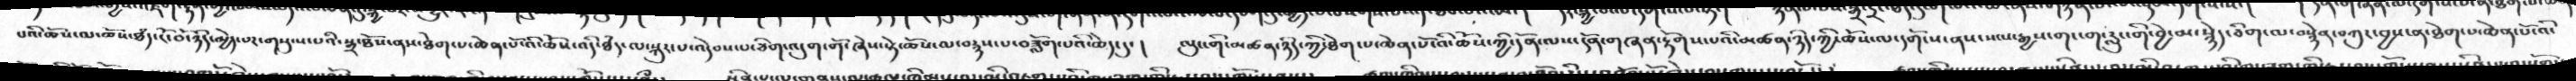པའི་ཆོས་ལ་ཆོས་ཐཾད་ངོ་བོ་ཉིད་མྱེད་པར་གསུངས་པའི་སྒྲ་ཐོས་ནས་ཐེག་པ་ཆེན་པོ་འི་ཆོས་འདི་ཐཾད་ལ་སྐུར་པ་འདེབས་པ་ཅིག་འདུག་གོ་ཞེས་སྟེ་ཆོས་མ་བརྙས་པ་བཟློག་པའི་ཆེད་དུ་།   ལུང་གི་མཚན་ཉིད་ཀྱི་ཐེག་པ་ཆེན་པོ་འི་ཆོས་ཀྱི་དོན་ལས་དོན་གཞན་རྟོགས་པའི་མཚན་ཉིད་ཀྱི་ཆོས་ལ་དགོངས་ནས་སངས་རྒྱས་གང་ག་རླུང་གི་བྱེ་མ་སྙེད་ཅིག་ལ་བསྙེན་བཀུར་བྱས་ན་ཐེག་པ་ཆེན་པོ་འི་
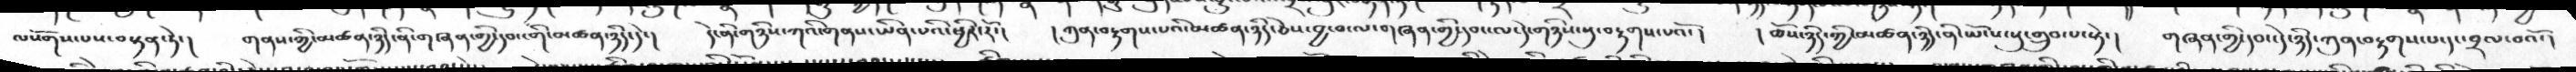ལསོགས་པས་བསྟན་ཏེ་།  གནས་ཀྱི་མཚན་ཉིད་ནི་གཞན་གྱི་དབང་གི་མཚན་ཉིད་དེ་།  དེ་ནི་གཉིས་ཀའི་གནས་ཡིན་པའི་ཕྱིར་རོ་།  །ཀུན་བརྟགས་པའི་མཚན་ཉིད་ཅེས་བྱ་བ་ལ་གཞན་གྱི་དབང་ལ་དེ་གཉིས་སུ་བརྟགས་པའོ་།   ། ཆོས་ཉིད་ཀྱི་མཚན་ཉིད་ནི་ཡོངས་སུ་གྲུབ་པ་སྟེ་།   གཞན་གྱི་དབང་དེ་ཉིད་ཀུན་བརྟགས་པ་དང་བྲལ་བའོ་།
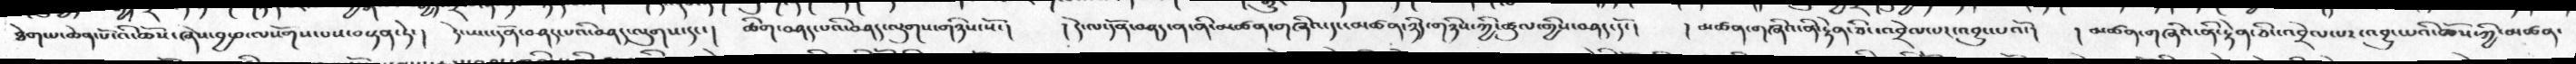ཐེག་པ་ཆེན་པོ་འི་ཆོས་ཞེས་བྱ་བ་ལསོགས་པས་བསྟན་ཏེ་།   དེ་ཡང་དོན་བཤད་པའི་བཤད་ལུགས་དང་།  ཚིག་བཤད་པའི་བཤད་ལུགས་གཉིས་སོ་།   །དེ་ལ་དོན་བཤད་ན་ནི་མཚན་གཞིའ་དང་མཚན་ཉིད་གཉིས་ཀྱི་ཚུལ་གྱིས་བཤད་དོ་།   ། མཚན་གཞིའ་ནི་རྟེན་ཅིང་འབྲེལ་པར་འབྱུང་པའོ་།   ། མཚན་གཞིའ་ནི་རྟེན་ཅིང་འབྲེལ་པར་འབྱུང་པའི་ཆོས་ཀྱི་མཚན་
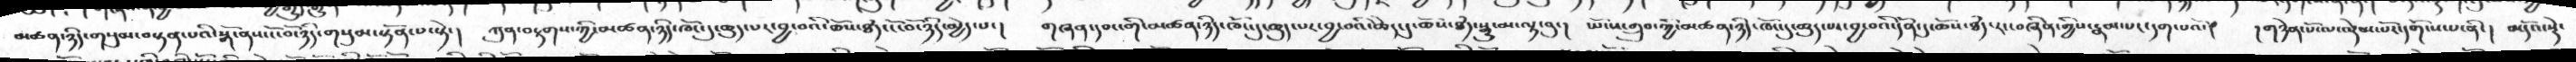མཚན་ཉིད་གསུམ་བསྟན་པའི་སྒོ་ནས་ངོ་བོ་ཉིད་གསུམ་སྟོན་པ་སྟེ་།   ཀུན་བརྟགས་ཀྱི་མཚན་ཉིད་ཁོང་དུ་ཆུད་པར་བྱ་བའི་ཆོས་ཐཾད་ངོ་བོ་ཉིད་མྱེད་པ་།   གཞན་དབང་གི་མཚན་ཉིད་ཁོང་དུ་ཆུད་པར་བྱ་བའི་ཆེད་དུ་ཆོས་ཐཾད་སྒྱུ་མ་ལྟ་བུ་།   ཡོངས་གྲུབ་ཀྱི་མཚན་ཉིད་ཁོང་དུ་ཆུད་པར་བྱ་བའི་དོན་དུ་ཆོས་ཐཾད་རང་བཞིན་གྱིས་རྣམ་པར་དག་པའོ་།    །གཉེན་པོ་ལ་ལྡེམ་པོར་དགོངས་པ་ནི་།   མདོའ་སྡེ་
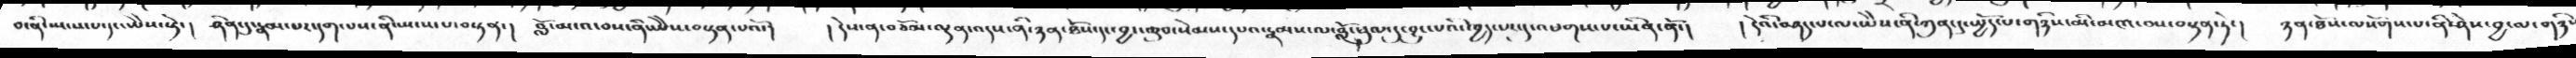བ་ནི་སྤངས་པ་དང་ཡཻས་སྟེ་།   ཤིན་དུ་རྣམ་པར་དག་པས་ནི་སྤངས་པ་བསྟན་།  བློ་མངའ་བས་ནི་ཡཻས་བསྟན་པའོ་།   །དེས་ན་བཅོམ་ལྡན་འདས་ནི་ཉན་ཐོས་དང་བྱང་ཆུབ་སེམས་དཔའ་རྣམས་ལ་བློ་ཕུལ་དུ་བྱུང་པའི་ཁྱད་པར་དུ་འཕགས་པ་ཡིན་ནོ་།   །དེའི་བཤད་པ་ལ་ཡཻས་ནི་ཀུན་དུ་སྤྱོད་པ་གཉིས་མི་མངའ་བས་བསྟན་ཏེ་།   ཉན་ཐོས་ལསོགས་པ་ནི་ཤེས་བྱ་ལ་གཉིས
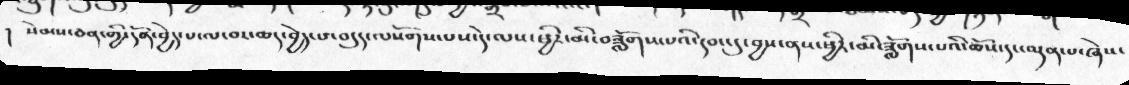། སེམས་ཅན་གྱི་དོན་བྱེད་པ་ལ་བར་ཆད་བྱེད་པ་བདུད་ལསོགས་པས་དེ་ལས་ཕྱིར་མི་བཟློགས་པའི་དབང་དུ་བྱས་ནས་ཕྱིར་མི་ཟློགས་པའི་ཆོས་དང་ལྡན་པ་ཞེས་
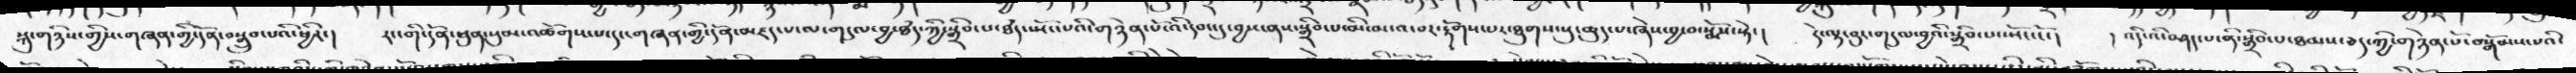སྐུ་གཉིས་གྱིས་གཞན་གྱི་དོན་བསྒྲུབ་པའི་ཕྱིར་།   རང་གི་དོན་ཕུན་སུམ་འཚོགས་པ་དང་གཞན་གྱི་དོན་མཛད་པ་ལ་གདུལ་བྱ་ཐཾད་སྤོང་པའི་གཉེན་པོ་འི་དབང་དུ་བྱས་ནས་སྒྲིབ་པ་མི་མངའ་བར་རྟོགས་པར་ཐུགས་སུ་ཆུད་པ་ཞེས་བྱ་བ་སྨོས་སྟེ་།    དེ་ལྟ་བུར་གདུལ་བྱའི་སྒྲིབ་པ་སྤོང་ངོ་།   ། འདི་འི་བཤད་པ་ནི་སྒྲིབ་པ་ཐམས་ཅད་ཀྱི་གཉེན་པོ་བསྒོམས་པའི་
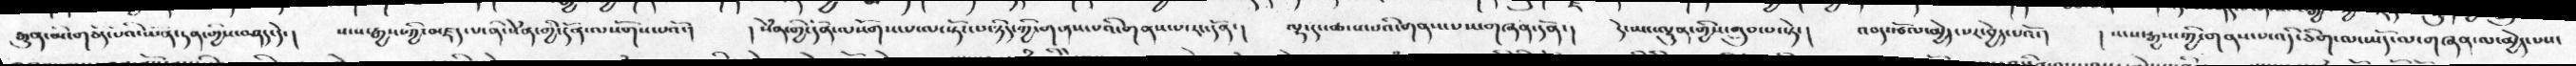རྒྱུན་མི་གཅོད་པའི་ཡོན་ཏན་གྱིས་བཤད་དེ་།   སངས་རྒྱས་ཀྱི་མཛད་པ་ནི་སེཾན་གྱི་དོན་ལསོགས་པའོ་།   །སེཾན་གྱི་དོན་ལསོགས་པ་ལ་སྟོང་པ་ཉིད་ཀྱི་གནས་པའི་གནས་པ་རང་དོན་།  ལྷ་དང་ཚངས་པའི་གནས་པས་གཞན་དོན་།  དེ་ཡང་ལྷུན་གྱིས་གྲུབ་པ་སྟེ་།   འབད་རྩོལ་མྱེད་པར་བྱེད་པའོ་།  ། སངས་རྒྱས་ཀྱི་གནས་པ་འདི་ཅིག་ལ་ཡོད་ལ་གཞན་ལ་མྱེད་པས་
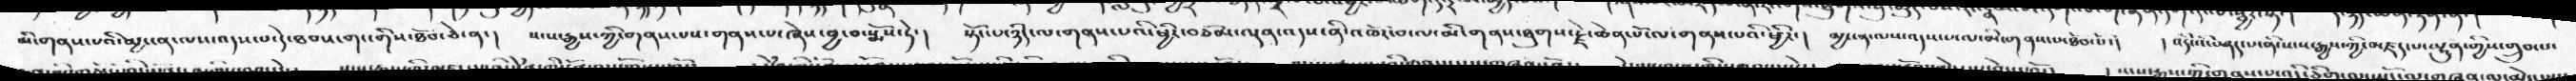མི་གནས་པའི་མྱ་ངན་ལས་འདས་པ་དེ་ཐབས་གང་གིས་ཐོབ་ཅེ་ན་།   སངས་རྒྱས་ཀྱི་གནས་པས་གནས་པ་ཞེས་བྱ་བ་སྨོས་ཏེ་།   སྟོང་པ་ཉིད་ལ་གནས་པའི་ཕྱིར་བཅོམ་ལྡན་འདས་ནི་འཁོར་བ་ལ་མི་གནས་ཐུགས་རྗེ་ཆེན་པོ་ལ་གནས་པའི་ཕྱིར་།   མྱ་ངན་ལས་འདས་པ་ལ་མི་གནས་པ་ཐོབ་པོ་།   །འདི་འི་བཤད་པ་ནི་སངས་རྒྱས་ཀྱི་མཛད་པ་ལྷུན་གྱིས་གྲུབ་པ་
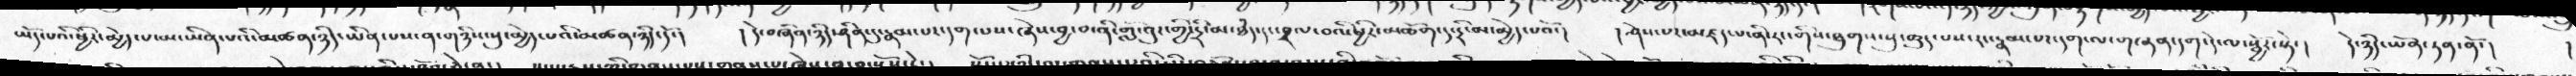ཡོད་པའི་ཕྱིར་མྱེད་པ་མ་ཡིན་པའི་མཚན་ཉིད་ཡིན་པས་ན་གཉིས་སུ་མྱེད་པའི་མཚན་ཉིད་དོ་།   ། དེ་བཞིན་ཉིད་ཤིན་དུ་རྣམ་པར་དག་པས་ཞེས་བྱ་བ་ནི་གློ་བུར་གྱི་དྲི་མ་ཐཾད་དང་བྲལ་བའི་ཕྱིར་མཆོག་དང་དྲི་མ་མྱེད་པའོ་།   ། ཤེས་པར་མཛད་པ་ནི་རང་གིས་ཐུགས་སུ་ཆུད་པས་རང་རྣམ་པར་དག་ལ་གཞན་དག་དེ་ལ་སྦྱོར་སྟེ་།    དེ་ཉིད་ཡོན་ཏན་ནོ་།   །
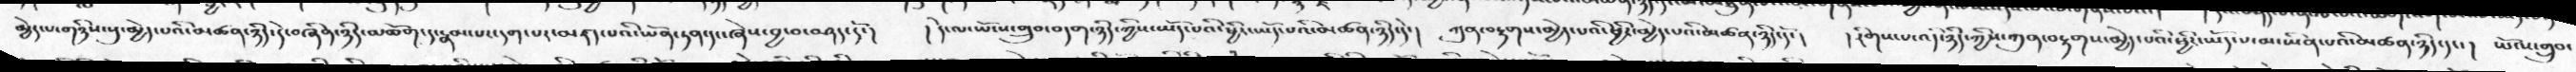མྱེད་པ་གཉིས་སུ་མྱེད་པའི་མཚན་ཉིད་དེ་བཞིན་ཉིད་མཆོག་དང་རྣམ་པར་དག་པར་མཛད་པའི་ཡོན་ཏན་དང་ཞེས་བྱ་བ་བཤད་དོ་།   ། དེ་ལ་ཡོངས་གྲུབ་བདག་ཉིད་ཀྱིས་ཡོད་པའི་ཕྱིར་ཡོད་པའི་མཚན་ཉིད་དེ་།   ཀུན་བརྟགས་མྱེད་པའི་ཕྱིར་མྱེད་པའི་མཚན་ཉིད་དོ་།   ། རིགས་པ་འདི་ཉིད་ཀྱིས་ཀུན་བརྟགས་མྱེད་པའི་ཕྱིར་ཡོད་པ་མ་ཡིན་པའི་མཚན་ཉིད་དང་།  ཡོངས་གྲུབ་
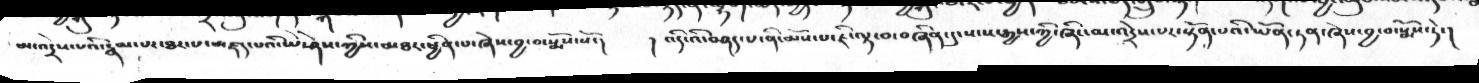མ་འདྲེས་པའི་རྣམ་པར་ཐར་པ་མཛད་པའི་ཡེ་ཤེས་ཀྱིས་མཐར་ཕྱིན་པ་ཞེས་བྱ་བ་སྨོས་སོ་།   ། འདི་འི་བཤད་པ་ནི་མོས་པ་ཇི་ལྟ་བ་བཞིན་དུ་སངས་རྒྱས་ཀྱི་ཞིང་མ་འདྲེས་པར་སྟོན་པའི་ཡོན་ཏན་ཞེས་བྱ་བ་སྨོས་ཏེ་།
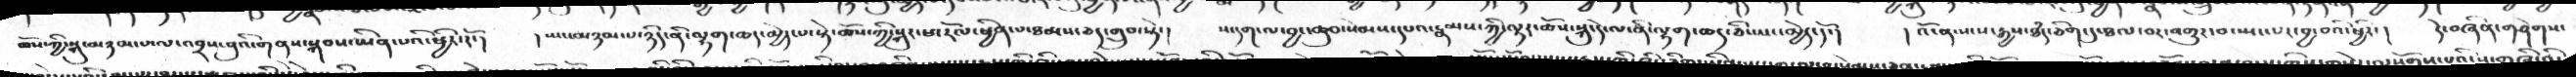ཆོས་ཀྱི་སྐུ་མཉམ་པ་ལ་འབྲས་བུའི་གནས་སྐབས་ཡིན་པའི་ཕྱིར་རོ་།   ། ཡང་མཉམ་པ་ཉིད་ནི་ལྷག་ཆད་མྱེད་པ་སྟེ་ཆོས་ཀྱི་སྐུར་ཕ་རོལ་ཕྱིན་པ་ཐམས་ཅད་གྲུབ་སྟེ་།   ས་དག་ལ་བྱང་ཆུབ་སེམས་དཔའ་རྣམས་ཀྱི་ལྟར་ཆོས་སྐུ་དེ་ལ་ནི་ལྷག་ཆད་ཅི་ཡང་མྱེད་དོ་།    ། འོ་ན་སངས་རྒྱས་ཐཾད་ཅིག་དུ་ཐལ་བར་འགྱུར་བ་སྤང་པར་བྱ་བའི་ཕྱིར་།   དེ་བཞིན་གཤེགས་
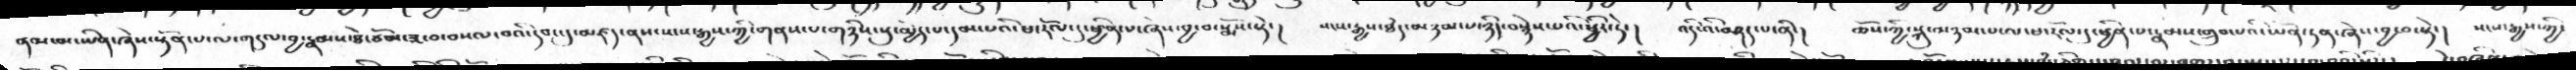ནམ་མ་ཡིན་ཞེས་སྟོན་པ་ལ་གདུལ་བྱ་རྣམས་ཐེ་ཙོམ་ཟ་བ་བསལ་བའི་དབང་དུ་མཛད་ནས་སངས་རྒྱས་ཀྱི་གནས་པ་གཉིས་སུ་མྱེད་པ་དམ་པའི་ཕ་རོལ་དུ་ཕྱིན་པ་ཞེས་བྱ་བ་སྨོས་སྟེ་།   སངས་རྒྱས་ཐཾད་མཉམ་པ་ཉིད་བསྙེན་པའི་ཕྱིར་ཏེ་།   འདི་འི་བཤད་པ་ནི་།  ཆོས་ཀྱི་སྐུ་མཉམ་པ་ལ་ཕ་རོལ་དུ་ཕྱིན་པ་རྣམས་གྲུབ་པའི་ཡོན་ཏན་ཞེས་བྱ་བ་སྟེ་།   སངས་རྒྱས་ཀྱི་
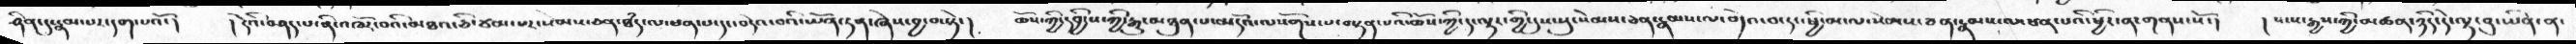ཤིན་དུ་རྣམ་པར་དག་པའོ་།   །དེའི་བཤད་པ་ནི་འཁོར་བའི་མཐའ་ཅི་ཙམ་པར་སེམས་ཅན་ཐཾད་ལ་ཕན་པ་དང་བདེའ་བའི་ཡོན་ཏན་ཞེས་བྱ་བ་སྟེ་།   ཆོས་ཀྱི་དབྱིངས་ཀྱི་རྒྱུ་མཐུན་པ་མདོའ་ལསོགས་པ་བསྟན་པའི་ཆོས་ཀྱི་ད་ལྟར་གྱི་དུས་སུ་སེམས་ཅན་རྣམས་ལ་བདེའ་བ་དང་ཕྱི་མ་ལ་སེམས་ཅན་རྣམས་ལ་ཕན་པའི་ཕྱིར་ན་གནས་སོ་།  །སངས་རྒྱས་ཀྱི་མཚན་ཉིད་དེ་ལྟ་བུ་ཡིན་ན་
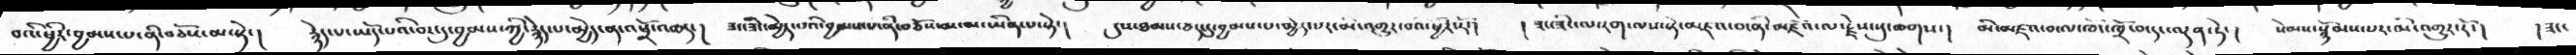བའི་ཕྱིར་བྱམས་པ་ནི་བཅོས་མ་སྟེ་།   རྙེད་པ་ཡོད་པའི་བར་དུ་བྱམས་ཀྱི་རྙེད་པ་མྱེད་ན་འཕྲོ་འཆད་།   ཟང་ཟིང་མྱེད་པའི་བྱམས་པ་ནི་བཅོས་མ་མ་ཡིན་པ་སྟེ་།  དུས་ཐམས་ཅད་དུ་བྱམས་པ་མྱེད་པར་མི་འགྱུར་བའི་ཕྱིར་རོ་།  ཟང་ཟིང་ལ་རག་ལས་སྟེ་མཛའ་བ་ནི་མཛེས་ལ་རྗེས་སུ་ཆགས་།  མི་མཛའ་བ་ལ་ཁང་ཁྲོ་བ་དང་ལྡན་ཏེ་།  སེམས་སྙོམས་པར་མི་འགྱུར་རོ་།  །ཟང་
